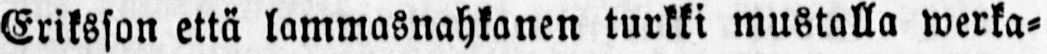Eriksson että lammasnahkanen turkki mustalla werka-
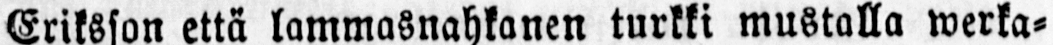wuorilla oli warastettu; 2:kst torppari Matti Kujanpää,
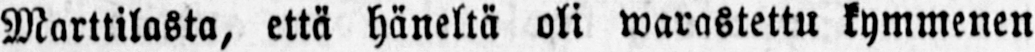Marttilasta, että häneltä oli warastettu kymmenen
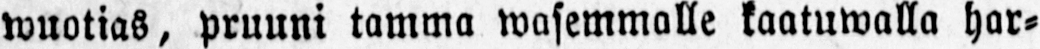wuotias, pruuni tamma wasemmalle kaatuwalla har-
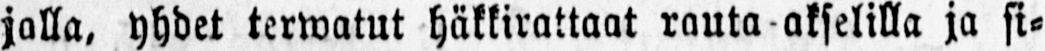jalla, yhdet terwatut häkkirattaat rauta akselilla ja si-
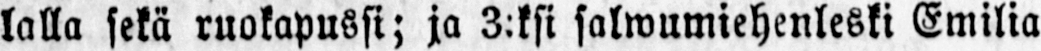lalla sekä ruokapussi; ja 3:ksi salwumiehenleski Emilia
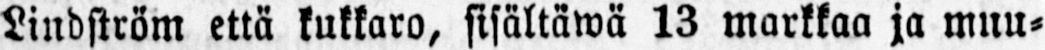Lindström että kukkaro, sisältäwä 13 markkaa ja muu-
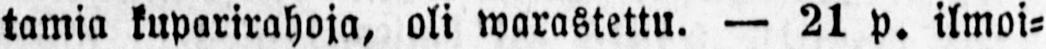tamia kuparirahoja, oli warastettu. — 21 p. ilmoi-
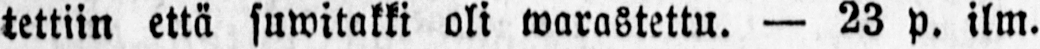tettiin että suwitakki oli warastettu. — 23 p. ilm.
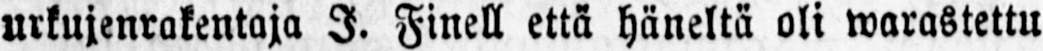urkujenrakentaja I. Finell että häneltä oli warastettu
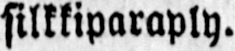silkkiparaply.
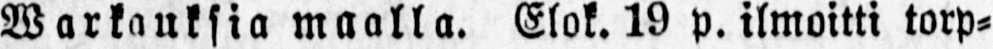Warkauksia maalla. Elok. 19 p. ilmoitti torp-
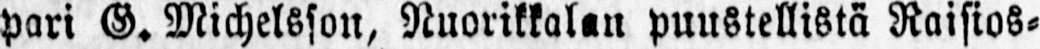pari G. Michelsson, Nuorikkalan puustellista Raisios-
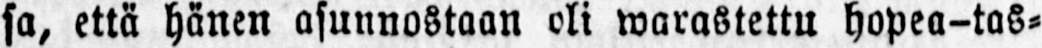sa, että hänen asunnostaan oli warastettu hopea-tas-
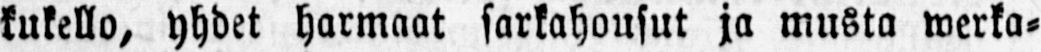kukello, yhdet harmaat sarkahousut ja musta werka-
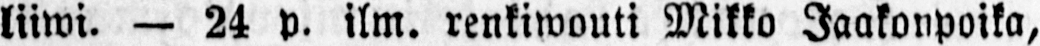liiwi. — 24 p. ilm. renkiwouti Mikko Jaakonpoika,
